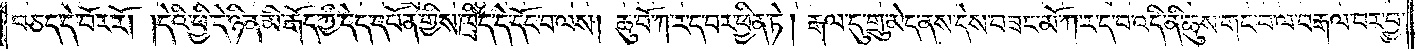བཅད་དེ་བོར་རོ། །དེའི་ཕྱི་དེ་ཉིན་མི་རྒོད་ཀྱི་དེད་དཔོན་གྱིས་ཁྲིད་དེ་དོང་བ་ལས། ཆུ་བོ་ཀ་ར་ད་བར་ཕྱིན་ཏེ། རྒལ་དུ་གྲུ་མེད་ནས་དེས་བཟང་མོ་ཀ་ར་ད་བ་འདི་ནི་ཆུས་གང་བ་ལ་བརྒལ་བར་བྱ་
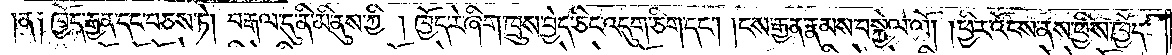ན༑ ཁྱོད་རྒྱན་དང་བཅས་ཏེ། བརྒལ་དུ་ནི་མི་ནུས་ཀྱི། ཁྱོད་རེ་ཞིག་ཁྲུས་བྱེད་ཅིང་འདུག་ཅིག་དང༌། །ངས་རྒྱན་རྣམས་བསྐྱེལ་ལོ། །ཕྱིར་འོངས་ནས་ཕྱིས་ཁྱོད་
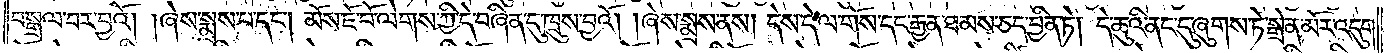བསྒྲལ་བར་བྱའོ། །ཞེས་སྨྲས་པ་དང༌། མོས་ཇོ་བོ་ལེགས་ཀྱི་དེ་བཞིན་དུ་ཁྲུས་བྱའོ། །ཞེས་སྨྲས་ནས། དེས་དེ་ལ་གོས་དང་རྒྱན་ཐམས་ཅད་བྱིན་ཏེ། དེ་ཆུའི་ནང་དུ་ཞུགས་ཏེ་སྒྲེན་མོར་འདུག་
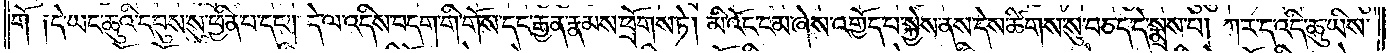གོ་༑དེ་ཡང་ཆུའི་དབུས་སུ་ཕྱིན་པ་དང༌། དེ་ལ་འདིས་བདག་གི་གོས་དང་རྒྱན་རྣམས་ཕྲོགས་ཏེ། མི་འོང་ངམ་ཞེས་འགྱོད་པ་སྐྱེས་ནས་དེས་ཚིགས་སུ་བཅད་དེ་སྨྲས་པ། ཀ་ར་ད་འདི་ཆུ་ཡིས་
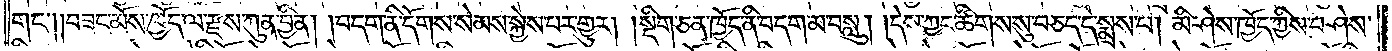གང༌། །བཟང་མོས་ཁྱོད་ལ་རྫས་ཀུན་བྱིན། །བདག་ནི་དོགས་སེམས་སྐྱེས་པར་གྱུར། །སྡིག་ཅན་ཁྱོད་ནི་བདག་མ་བསླུ། །དེས་ཀྱང་ཚིགས་སུ་བཅད་དེ་སྨྲས་པ། མི་ཤེས་ཁྱོད་ཀྱིས་བཤེས་
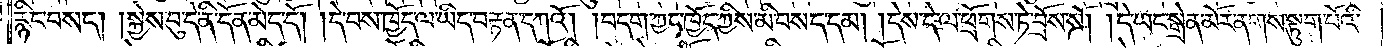རྙིང་བསད། །སྐྱེས་བུ་དེ་ནི་དོན་མེད་དོ། །དེ་བས་ཁྱོད་ལ་ཡིད་བརྟན་དཀའོ། །བདག་ཀྱང་ཁྱོད་ཀྱིས་མི་བསད་དམ། །དེས་དེ་ལ་ཕྲོགས་ཏེ་བྲོས་སོ། །དེ་ཡང་སྒྲེན་མོར་ནགས་སྟུག་པོའི་
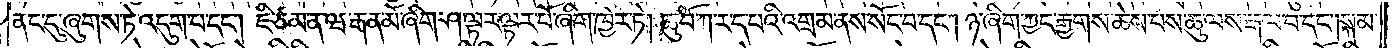ནང་དུ་ཞུགས་ཏེ་འདུག་པ་དང༌། ཇི་ཙམ་ན་ཝ་རྒན་མོ་ཞིག་ཤ་ལྟར་ལྟར་བོ་ཞིག་ཁྱེར་ཏེ། ཆུ་བོ་ཀ་ར་ད་པའི་འགྲམ་ནས་སོང་བ་དང༌། ཉ་ཞིག་ཀྱང་རྒྱགས་ཆེས་པས་ཆུ་ལས་རྒལ་བ་དང༌། སྐམ་
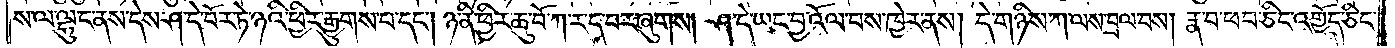ས་ལ་ལྷུང་ནས་དེས་ཤ་དེ་བོར་ཏེ་ཉའི་ཕྱིར་རྒྱུགས་པ་དང༌། ཉ་ནི་ཕྱིར་ཆུ་བོ་ཀ་ར་ད་བར་ཞུགས། ཤ་དེ་ཡང་བྱའོ་ལ་བས་ཁྱེར་ནས། དེ་གཉིས་ཀ་ལས་བྲལ་བས། རྣ་བ་ཕབ་ཅིང་འགྱོད་ཅིང་
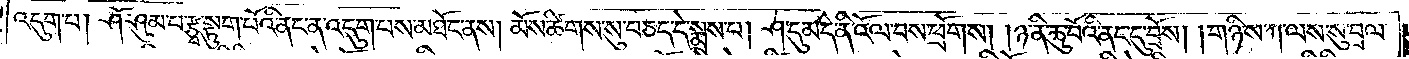འདུག་པ། ཤོ་ཤུམ་པ་རྩྭ་སྟུག་པོའི་ནང་ན་འདུག་པས་མཐོང་ནས། མོས་ཚིགས་སུ་བཅད་དེ་སྨྲས་པ། ཤ་དུམ་དེ་ནི་འོལ་བས་ཕྲོགས། །ཉ་ནི་ཆུ་བོའི་ནང་དུ་བྲོས། །གཉིས་ཀ་ལས་སུ་བྲལ་
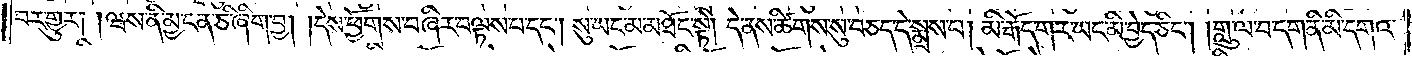བར་གྱུར། །ཝས་ནི་མྱ་ངན་ཅི་ཞིག་བྱ། །དེས་ཕྱོགས་བཞིར་བལྟས་པ་དང༌། སུ་ཡང་མ་མཐོང་སྟེ། དེ་ནས་ཚིགས་སུ་བཅད་དེ་སྨྲས་པ། མི་རྒོད་གར་ཡང་མི་བྱེད་ཅིང༌། །གླུ་ལ་བདག་ནི་མི་དགའ་
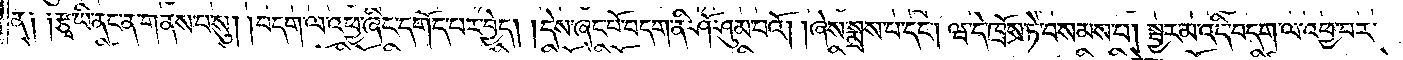ན༑ ༑རྩྭ་ཡི་ནང་ན་གནས་པ་སུ། །བདག་ལ་འཕྱ་ཞིང་དགོད་པར་བྱེད། །དེས་ཞང་པོ་བདག་ནི་ཤོ་ཤུམ་པའོ། །ཞེས་སྨྲས་པ་དང༌། ཝ་དེ་ཁྲོས་ཏེ་བསམས་པ། སྦྱར་མ་འདི་བདག་ལ་འཕྱ་བར་
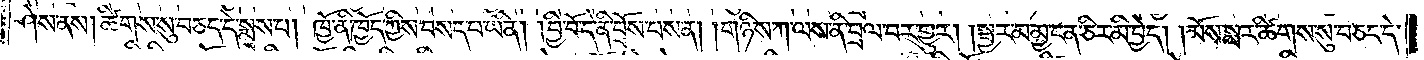ཤེས་ནས། ཚིགས་སུ་བཅད་དེ་སྨྲས་པ། ཁྱོ་ནི་ཁྱོད་ཀྱིས་བསད་པ་ཡིན། །བྱི་བོ་དེ་ནི་བྲོས་པས་ན། །གཉིས་ཀ་ལས་ནི་བྲལ་བར་གྱུར། །སྦྱར་མ་མྱ་ངན་ཅིར་མི་བྱེད། །མོས་སླར་ཚིགས་སུ་བཅད་དེ་
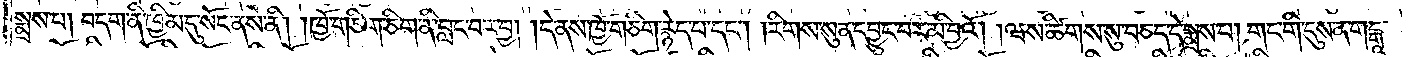སྨྲས་པ། བདག་ནི་ཁྱིམ་དུ་སོང་ནས་ནི། །ཁྱོ་གཅིག་ཅིག་ནི་བླང་བར་བྱ། །དེ་ནས་ཁྱོ་གཅིག་རྙེད་པ་དང༌། །རིགས་སུན་དབྱུང་བར་མི་བྱའོ། །ཝས་ཚིགས་སུ་བཅད་དེ་སྨྲས་པ། གང་གི་དུས་ན་གངྒཱ་
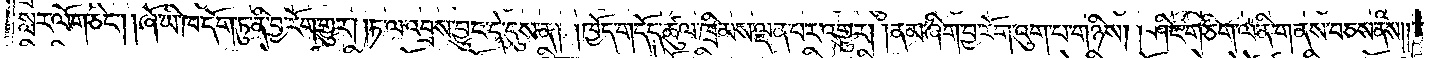སླར་ལོག་ཅིང༌། །ཞོ་ཡི་ཁ་དོག་ཏུ་ནི་བྱ་རོག་གྱུར། །ཏ་ལ་འབྲས་བྱུང་དེ་དུས་ན། །ཁྱོད་གདོད་ཚུལ་ཁྲིམས་ལྡན་པར་འགྱུར། །ནམ་ཞིག་བྱ་རོག་འུག་པ་གཉིས། །ཤིང་གཅིག་ལ་ནི་གནས་བཅས་ནས། །
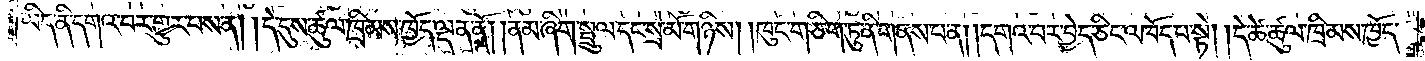ཡིད་ནི་དགའ་བར་གྱུར་བས་ན། །དེ་དུས་ཚུལ་ཁྲིམས་ཁྱོད་ལྡན་ནོ། །ནམ་ཞིག་སྦྲུལ་དང་སྲེ་མོ་གཉིས། །ཁུང་གཅིག་ཏུ་ནི་གནས་པ་ན། །དགའ་བར་བྱེད་ཅིང་འཁོད་པ་སྟེ། །དེ་ཚེ་ཚུལ་ཁྲིམས་ཁྱོད་
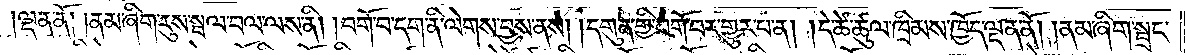ལྡན་ནོ། །ནམ་ཞིག་རུས་སྦལ་བལ་ལས་ནི། །བགོ་བ་དག་ནི་ལེགས་བྱས་ནས། །དགུན་གྱི་བགོ་བར་གྱུར་པ་ན། །དེ་ཚེ་ཚུལ་ཁྲིམས་ཁྱོད་ལྡན་ནོ། །ནམ་ཞིག་སྦྲང་
